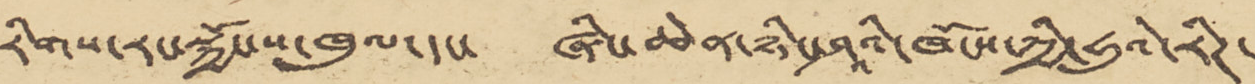རིགས་རང་སྐྱོང་ས་ཁུལ་དང་ ཞིང་ཆེན་ཉིང་ཤཱའི་ཁོངས་ཀྱི་ཧུའེ་རིཊ་
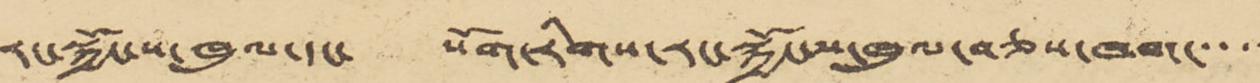རང་སྐྱོང་ས་ཁུལ་དང་ སོག་རིགས་རང་སྐྱོང་ས་ཁུལ་བཅས་ཁག་་་་་
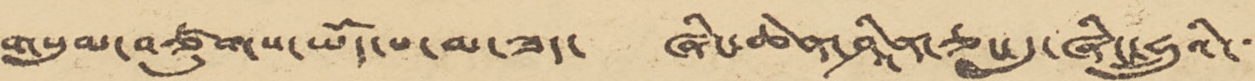གསུམ་བཙུགས་ཡོད་པ་མ་ཟད་ ཞིང་ཆེན་ཤཱིན་ཅང་དུ་ཞིང་ཧྲུའི་་་
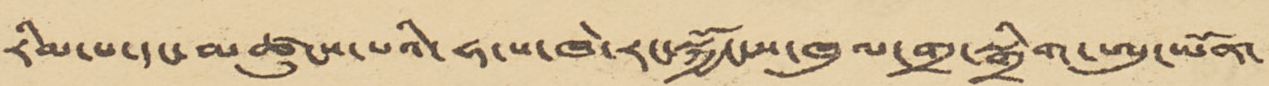རིམ་པ་དང་མཚུངས་པའི་ཧ་ས་ཁེ་རང་སྐྱོང་ས་ཁུལ་གྲ་སྒྲིག་ཨུ་ཡོན་
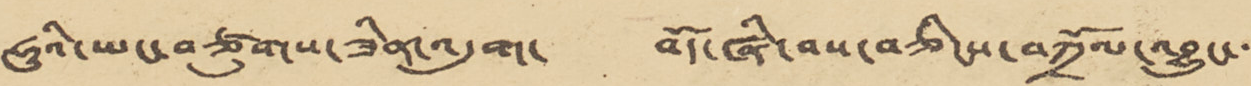ཧུའི་ཡང་བཙུགས་ཟིན་འདུག་ བོད་ཞི་བས་བཅིངས་བཀྲོལ་འབྱུང་་་
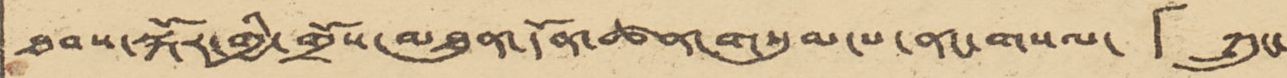ཐབས་སྐོར་གྱི་གྲོས་མཐུན་དོན་ཚན་གསུམ་པ་ནང་གསལ་ 「ཀྲུང་
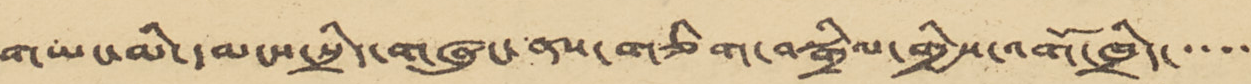གཡང་མི་དམངས་སྲིད་གཞུང་ནས་གཅིག་བསྒྲིལ་གྱིས་འགོ་ཁྲིད་་་་་་
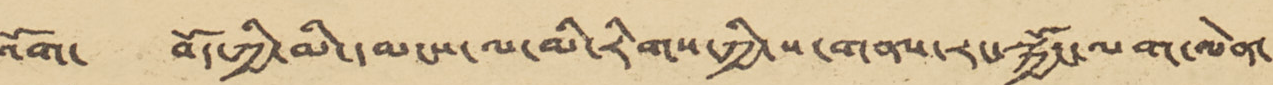འོག་ བོད་ཀྱི་མི་དམངས་ལ་མི་རིགས་ཀྱི་ས་གནས་རང་སྐྱོང་ལག་ལེན་
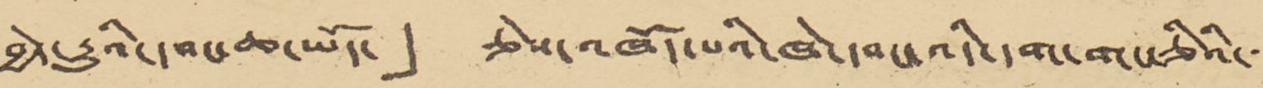བྱེད་རྒྱུའི་དབང་ཆ་ཡོད་」 ཅེས་འཁོད་པའི་ཁེ་དབང་འདི་དག་གང་ཅིའི་་
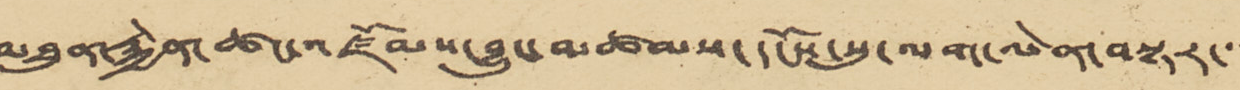མཐུན་རྐྱེན་ཚང་འཛོམས་བྱུང་མཚམས་དངོས་སུ་ལག་ལེན་བསྟར་་་
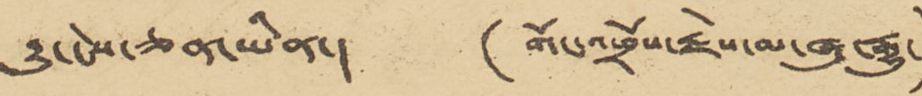རྒྱུ་ངེས་ཅན་ཡིན་། (གོང་འཕྲོས་རྗེས་མ་ཞུ་རྒྱུ་)
